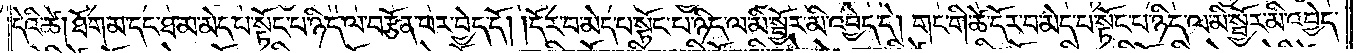དེའི་ཚེ། ཐོག་མ་དང་ཐ་མ་མེད་པ་སྟོང་པ་ཉིད་ལ་བརྩོན་པར་བྱེད་དོ། །དོར་བ་མེད་པ་སྟོང་པ་ཉིད་ལ་མི་སྦྱོར་མི་འབྱེད་དེ། གང་གི་ཚེ་དོར་བ་མེད་པ་སྟོང་པ་ཉིད་ལ་མི་སྦྱོར་མི་འབྱེད་
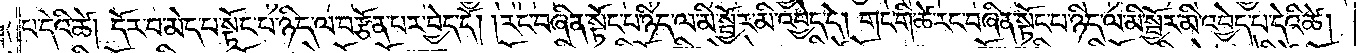པ་དེའི་ཚེ། དོར་བ་མེད་པ་སྟོང་པ་ཉིད་ལ་བརྩོན་པར་བྱེད་དོ། །རང་བཞིན་སྟོང་པ་ཉིད་ལ་མི་སྦྱོར་མི་འབྱེད་དེ། གང་གི་ཚེ་རང་བཞིན་སྟོང་པ་ཉིད་ལ་མི་སྦྱོར་མི་འབྱེད་པ་དེའི་ཚེ།
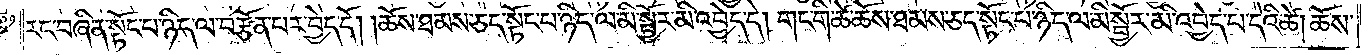རང་བཞིན་སྟོང་པ་ཉིད་ལ་བརྩོན་པར་བྱེད་དོ། །ཆོས་ཐམས་ཅད་སྟོང་པ་ཉིད་ལ་མི་སྦྱོར་མི་འབྱེད་དེ། གང་གི་ཚེ་ཆོས་ཐམས་ཅད་སྟོང་པ་ཉིད་ལ་མི་སྦྱོར་མི་འབྱེད་པ་དེའི་ཚེ། ཆོས་
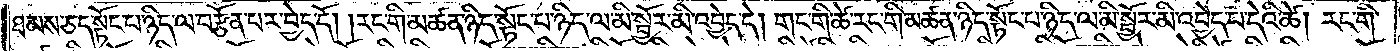ཐམས་ཅད་སྟོང་པ་ཉིད་ལ་བརྩོན་པར་བྱེད་དོ། །རང་གི་མཚན་ཉིད་སྟོང་པ་ཉིད་ལ་མི་སྦྱོར་མི་འབྱེད་དེ། གང་གི་ཚེ་རང་གི་མཚན་ཉིད་སྟོང་པ་ཉིད་ལ་མི་སྦྱོར་མི་འབྱེད་པ་དེའི་ཚེ། རང་གི་
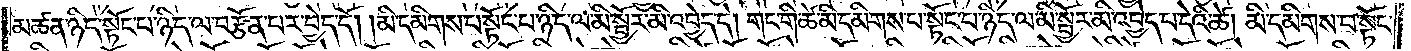མཚན་ཉིད་སྟོང་པ་ཉིད་ལ་བརྩོན་པར་བྱེད་དོ། །མི་དམིགས་པ་སྟོང་པ་ཉིད་ལ་མི་སྦྱོར་མི་འབྱེད་དེ། གང་གི་ཚེ་མི་དམིགས་པ་སྟོང་པ་ཉིད་ལ་མི་སྦྱོར་མི་འབྱེད་པ་དེའི་ཚེ། མི་དམིགས་པ་སྟོང་
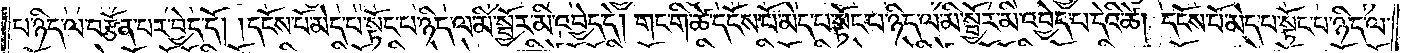པ་ཉིད་ལ་བརྩོན་པར་བྱེད་དོ། །དངོས་པོ་མེད་པ་སྟོང་པ་ཉིད་ལ་མི་སྦྱོར་མི་འབྱེད་དེ། གང་གི་ཚེ་དངོས་པོ་མེད་པ་སྟོང་པ་ཉིད་ལ་མི་སྦྱོར་མི་འབྱེད་པ་དེའི་ཚེ། དངོས་པོ་མེད་པ་སྟོང་པ་ཉིད་ལ་
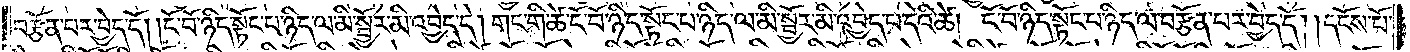བརྩོན་པར་བྱེད་དོ། །ངོ་བོ་ཉིད་སྟོང་པ་ཉིད་ལ་མི་སྦྱོར་མི་འབྱེད་དེ། གང་གི་ཚེ་ངོ་བོ་ཉིད་སྟོང་པ་ཉིད་ལ་མི་སྦྱོར་མི་འབྱེད་པ་དེའི་ཚེ། ངོ་བོ་ཉིད་སྟོང་པ་ཉིད་ལ་བརྩོན་པར་བྱེད་དོ། །དངོས་པོ་
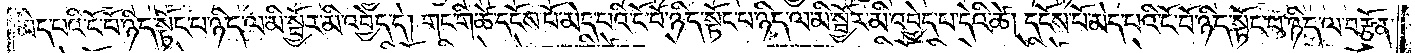མེད་པའི་ངོ་བོ་ཉིད་སྟོང་པ་ཉིད་ལ་མི་སྦྱོར་མི་འབྱེད་དེ། གང་གི་ཚེ་དངོས་པོ་མེད་པའི་ངོ་བོ་ཉིད་སྟོང་པ་ཉིད་ལ་མི་སྦྱོར་མི་འབྱེད་པ་དེའི་ཚེ། དངོས་པོ་མེད་པའི་ངོ་བོ་ཉིད་སྟོང་པ་ཉིད་ལ་བརྩོན་
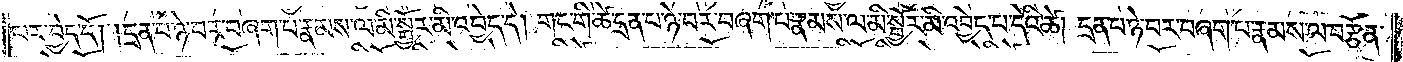པར་བྱེད་དོ། །དྲན་པ་ཉེ་བར་བཞག་པ་རྣམས་ལ་མི་སྦྱོར་མི་འབྱེད་དེ། གང་གི་ཚེ་དྲན་པ་ཉེ་བར་བཞག་པ་རྣམས་ལ་མི་སྦྱོར་མི་འབྱེད་པ་དེའི་ཚེ། དྲན་པ་ཉེ་བར་བཞག་པ་རྣམས་ལ་བརྩོན་
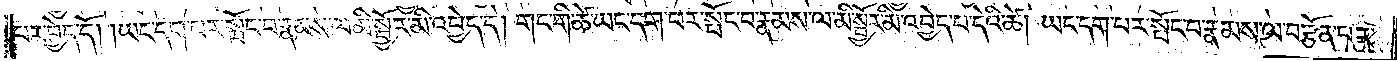པར་བྱེད་དོ། །ཡང་དག་པར་སྤོང་བ་རྣམས་ལ་མི་སྦྱོར་མི་འབྱེད་དེ། གང་གི་ཚེ་ཡང་དག་པར་སྤོང་བ་རྣམས་ལ་མི་སྦྱོར་མི་འབྱེད་པ་དེའི་ཚེ། ཡང་དག་པར་སྤོང་བ་རྣམས་ལ་བརྩོན་པར་
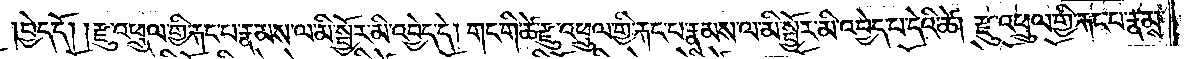བྱེད་དོ། །རྫུ་འཕྲུལ་གྱི་རྐང་པ་རྣམས་ལ་མི་སྦྱོར་མི་འབྱེད་དེ། གང་གི་ཚེ་རྫུ་འཕྲུལ་གྱི་རྐང་པ་རྣམས་ལ་མི་སྦྱོར་མི་འབྱེད་པ་དེའི་ཚེ། རྫུ་འཕྲུལ་གྱི་རྐང་པ་རྣམས་
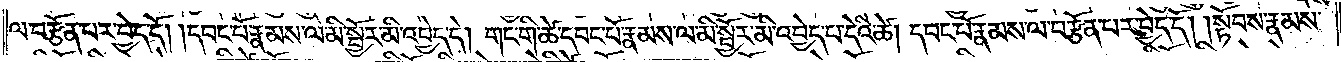ལ་བརྩོན་པར་བྱེད་དོ། །དབང་པོ་རྣམས་ལ་མི་སྦྱོར་མི་འབྱེད་དེ། གང་གི་ཚེ་དབང་པོ་རྣམས་ལ་མི་སྦྱོར་མི་འབྱེད་པ་དེའི་ཚེ། དབང་པོ་རྣམས་ལ་བརྩོན་པར་བྱེད་དོ། །སྟོབས་རྣམས་
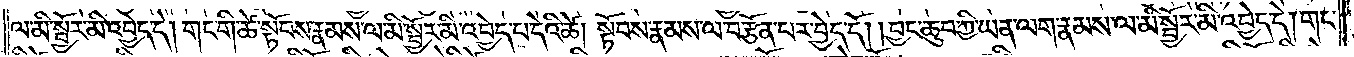ལ་མི་སྦྱོར་མི་འབྱེད་དེ། གང་གི་ཚེ་སྟོབས་རྣམས་ལ་མི་སྦྱོར་མི་འབྱེད་པ་དེའི་ཚེ། སྟོབས་རྣམས་ལ་བརྩོན་པར་བྱེད་དོ། །བྱང་ཆུབ་ཀྱི་ཡན་ལག་རྣམས་ལ་མི་སྦྱོར་མི་འབྱེད་དེ། གང་
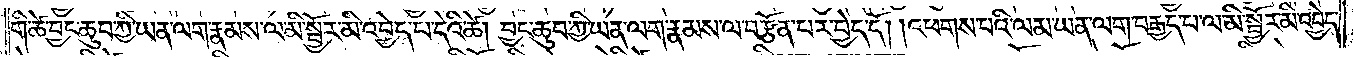གི་ཚེ་བྱང་ཆུབ་ཀྱི་ཡན་ལག་རྣམས་ལ་མི་སྦྱོར་མི་འབྱེད་པ་དེའི་ཚེ། བྱང་ཆུབ་ཀྱི་ཡན་ལག་རྣམས་ལ་བརྩོན་པར་བྱེད་དོ། །འཕགས་པའི་ལམ་ཡན་ལག་བརྒྱད་པ་ལ་མི་སྦྱོར་མི་འབྱེད་
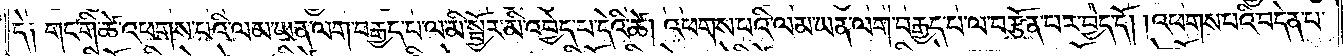དེ༑ གང་གི་ཚེ་འཕགས་པའི་ལམ་ཡན་ལག་བརྒྱད་པ་ལ་མི་སྦྱོར་མི་འབྱེད་པ་དེའི་ཚེ། འཕགས་པའི་ལམ་ཡན་ལག་བརྒྱད་པ་ལ་བརྩོན་པར་བྱེད་དོ། །འཕགས་པའི་བདེན་པ་
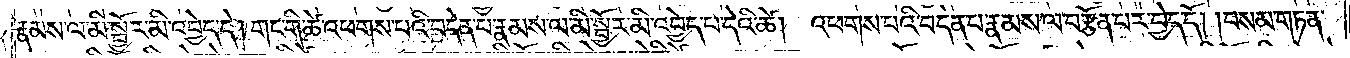རྣམས་ལ་མི་སྦྱོར་མི་འབྱེད་དེ། གང་གི་ཚེ་འཕགས་པའི་བདེན་པ་རྣམས་ལ་མི་སྦྱོར་མི་འབྱེད་པ་དེའི་ཚེ། འཕགས་པའི་བདེན་པ་རྣམས་ལ་བརྩོན་པར་བྱེད་དོ། །བསམ་གཏན་
